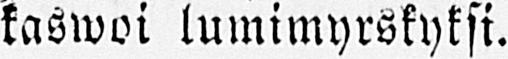kaswoi lumimyrskyksi.
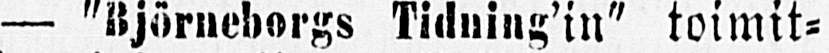— "Björneborgs" Tidning'in" toimit-
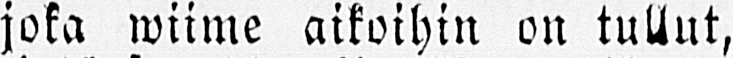taja, joka wiime aikoihin on tullut,
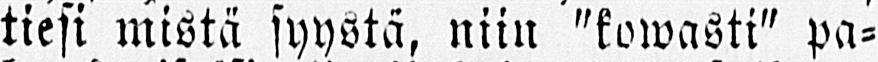tiesi mistä syystä, niin "kowasti" pa-
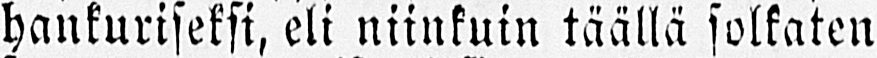hankuriseksi, eli niinkuin täällä solkaten
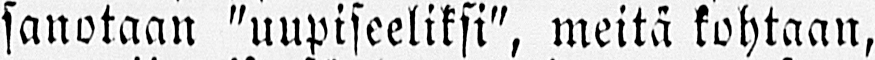sanotaan "uupiseeliksi", meitä kohtaan,
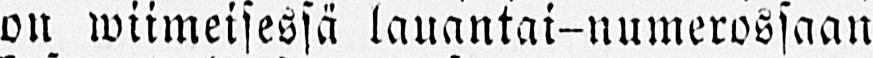on lauantai-numerossaan
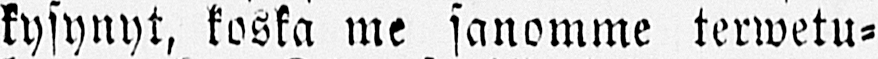kysynyt, koska me sanomme terwetu-
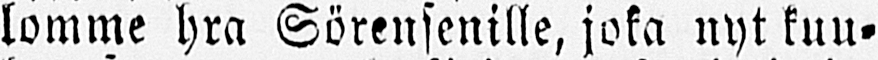lomme hra Sörensenille, joka nyt kuu-
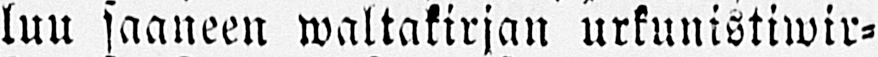luu saaneen waltakirjan urkunistiwir-
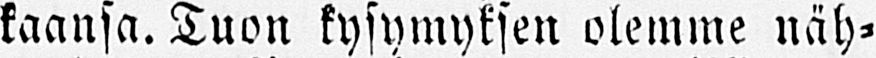kaansa. Tuon kysymyksen olemme näh-
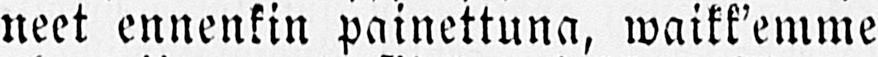neet ennenkin painettuna, waikk'emme
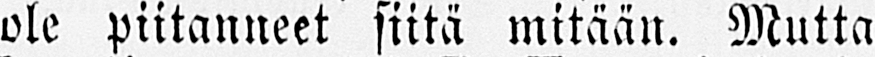ole piitanneet siitä mitään. Mutta
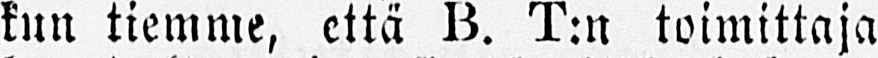kun tiemme, että B. T:n toimittaja
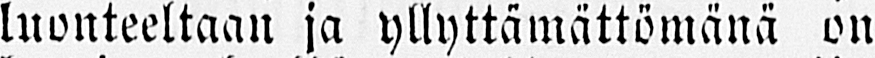luonteeltaan ja yllyttämättömänä on
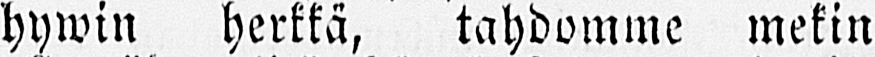hywin herkkä, tahdomme mekin
